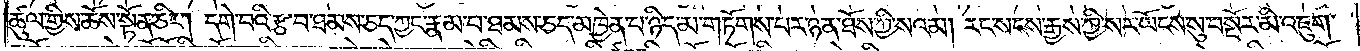ཚུལ་གྱིས་ཆོས་སྟོན་ཅིང༌། དགེ་བའི་རྩ་བ་ཐམས་ཅད་ཀྱང་རྣམ་པ་ཐམས་ཅད་མཁྱེན་པ་ཉིད་མ་གཏོགས་པར་ཉན་ཐོས་ཀྱི་སའམ། རང་སངས་རྒྱས་ཀྱི་སར་ཡོངས་སུ་བསྔོར་མི་འཇུག་
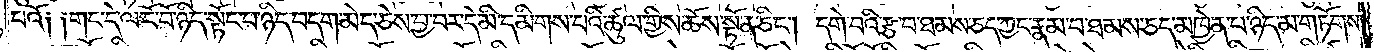པའོ༑ ༑གང་དེ་ལ་ངོ་བོ་ཉིད་སྟོང་པ་ཉིད་བདག་མེད་ཅེས་བྱ་བར་དེ་མི་དམིགས་པའི་ཚུལ་གྱིས་ཆོས་སྟོན་ཅིང༌། དགེ་བའི་རྩ་བ་ཐམས་ཅད་ཀྱང་རྣམ་པ་ཐམས་ཅད་མཁྱེན་པ་ཉིད་མ་གཏོགས་
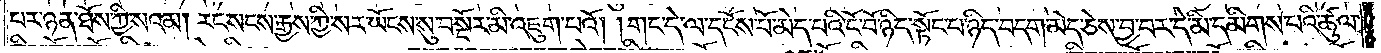པར་ཉན་ཐོས་ཀྱི་སའམ། རང་སངས་རྒྱས་ཀྱི་སར་ཡོངས་སུ་བསྔོར་མི་འཇུག་པའོ། །གང་དེ་ལ་དངོས་པོ་མེད་པའི་ངོ་བོ་ཉིད་སྟོང་བ་ཉིད་བདག་མེད་ཅེས་བྱ་བར་དེ་མི་དམིགས་པའི་ཚུལ་
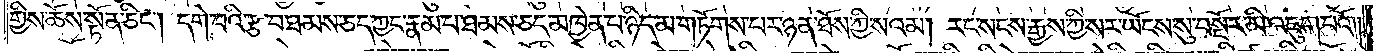གྱིས་ཆོས་སྟོན་ཅིང༌། དགེ་བའི་རྩ་བ་ཐམས་ཅད་ཀྱང་རྣམ་པ་ཐམས་ཅད་མཁྱེན་པ་ཉིད་མ་གཏོགས་པར་ཉན་ཐོས་ཀྱི་སའམ། རང་སངས་རྒྱས་ཀྱི་སར་ཡོངས་སུ་བསྔོར་མི་འཇུག་པའོ༎
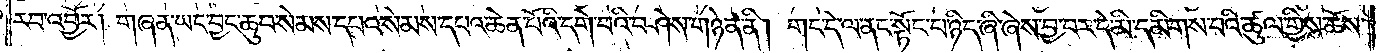རབ་འབྱོར། གཞན་ཡང་བྱང་ཆུབ་སེམས་དཔའ་སེམས་དཔའ་ཆེན་པོའི་དགེ་བའི་བཤེས་གཉེན་ནི། གང་དེ་ལ་ནང་སྟོང་པ་ཉིད་ཞི་ཞེས་བྱ་བར་དེ་མི་དམིགས་པའི་ཚུལ་གྱིས་ཆོས་
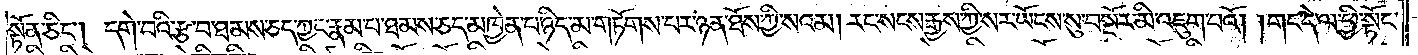སྟོན་ཅིང༌། དགེ་བའི་རྩ་བ་ཐམས་ཅད་ཀྱང་རྣམ་པ་ཐམས་ཅད་མཁྱེན་པ་ཉིད་མ་གཏོགས་པར་ཉན་ཐོས་ཀྱི་སའམ། རང་སངས་རྒྱས་ཀྱི་སར་ཡོངས་སུ་བསྔོར་མི་འཇུག་པའོ། །གང་དེ་ལ་ཕྱི་སྟོང་
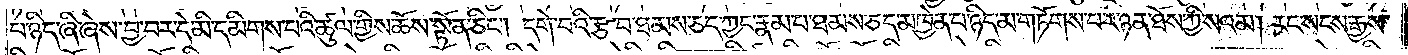པ་ཉིད་ཞི་ཞེས་བྱ་བར་དེ་མི་དམིགས་པའི་ཚུལ་གྱིས་ཆོས་སྟོན་ཅིང༌། དགེ་བའི་རྩ་བ་ཐམས་ཅད་ཀྱང་རྣམ་པ་ཐམས་ཅད་མཁྱེན་པ་ཉིད་མ་གཏོགས་པར་ཉན་ཐོས་ཀྱི་སའམ། རང་སངས་རྒྱས་
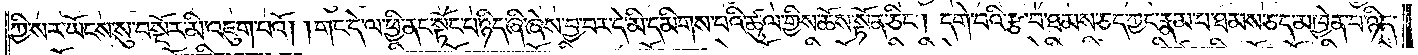ཀྱི་སར་ཡོངས་སུ་བསྔོར་མི་འཇུག་པའོ། །གང་དེ་ལ་ཕྱི་ནང་སྟོང་པ་ཉིད་ཞི་ཞེས་བྱ་བར་དེ་མི་དམིགས་པའི་ཚུལ་གྱིས་ཆོས་སྟོན་ཅིང༌། དགེ་བའི་རྩ་བ་ཐམས་ཅད་ཀྱང་རྣམ་པ་ཐམས་ཅད་མཁྱེན་པ་ཉིད་
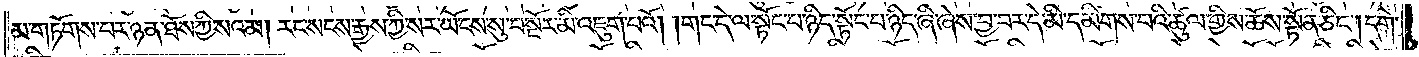མ་གཏོགས་པར་ཉན་ཐོས་ཀྱི་སའམ། རང་སངས་རྒྱས་ཀྱི་སར་ཡོངས་སུ་བསྔོར་མི་འཇུག་པའོ། །གང་དེ་ལ་སྟོང་པ་ཉིད་སྟོང་པ་ཉིད་ཞི་ཞེས་བྱ་བར་དེ་མི་དམིགས་པའི་ཚུལ་གྱིས་ཆོས་སྟོན་ཅིང༌། དགེ་
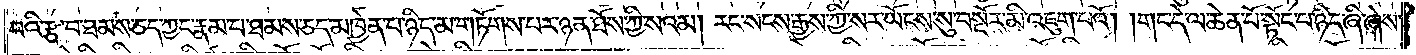བའི་རྩ་བ་ཐམས་ཅད་ཀྱང་རྣམ་པ་ཐམས་ཅད་མཁྱེན་པ་ཉིད་མ་གཏོགས་པར་ཉན་ཐོས་ཀྱི་སའམ། རང་སངས་རྒྱས་ཀྱི་སར་ཡོངས་སུ་བསྔོར་མི་འཇུག་པའོ། །གང་དེ་ལ་ཆེན་པོ་སྟོང་པ་ཉིད་ཞི་ཞེས་
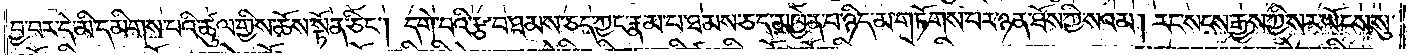བྱ་བར་དེ་མི་དམིགས་པའི་ཚུལ་གྱིས་ཆོས་སྟོན་ཅིང༌། དགེ་བའི་རྩ་བ་ཐམས་ཅད་ཀྱང་རྣམ་པ་ཐམས་ཅད་མཁྱེན་པ་ཉིད་མ་གཏོགས་པར་ཉན་ཐོས་ཀྱི་སའམ། རང་སངས་རྒྱས་ཀྱི་སར་ཡོངས་སུ་
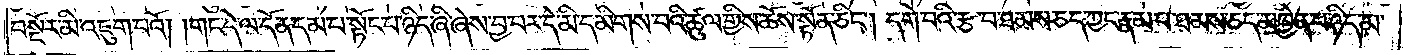བསྔོར་མི་འཇུག་པའོ། །གང་དེ་ལ་དོན་དམ་པ་སྟོང་པ་ཉིད་ཞི་ཞེས་བྱ་བར་དེ་མི་དམིགས་པའི་ཚུལ་གྱིས་ཆོས་སྟོན་ཅིང༌། དགེ་བའི་རྩ་བ་ཐམས་ཅད་ཀྱང་རྣམ་པ་ཐམས་ཅད་མཁྱེན་པ་ཉིད་མ་
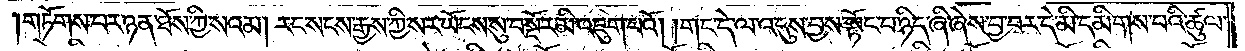གཏོགས་པར་ཉན་ཐོས་ཀྱི་སའམ། རང་སངས་རྒྱས་ཀྱི་སར་ཡོངས་སུ་བསྔོར་མི་འཇུག་པའོ། །གང་དེ་ལ་འདུས་བྱས་སྟོང་པ་ཉིད་ཞི་ཞེས་བྱ་བར་དེ་མི་དམིགས་པའི་ཚུལ་
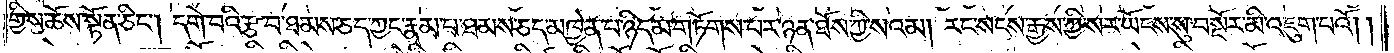གྱིས་ཆོས་སྟོན་ཅིང༌། དགེ་བའི་རྩ་བ་ཐམས་ཅད་ཀྱང་རྣམ་པ་ཐམས་ཅད་མཁྱེན་པ་ཉིད་མ་གཏོགས་པར་ཉན་ཐོས་ཀྱི་སའམ། རང་སངས་རྒྱས་ཀྱི་སར་ཡོངས་སུ་བསྔོར་མི་འཇུག་པའོ། །
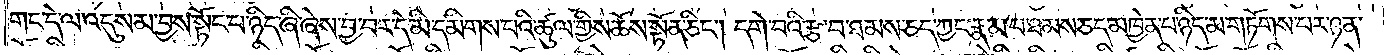གང་དེ་ལ་འདུས་མ་བྱས་སྟོང་པ་ཉིད་ཞི་ཞེས་བྱ་བར་དེ་མི་དམིགས་པའི་ཚུལ་གྱིས་ཆོས་སྟོན་ཅིང༌། དགེ་བའི་རྩ་བ་ཐམས་ཅད་ཀྱང་རྣམ་པ་ཐམས་ཅད་མཁྱེན་པ་ཉིད་མ་གཏོགས་པར་ཉན་
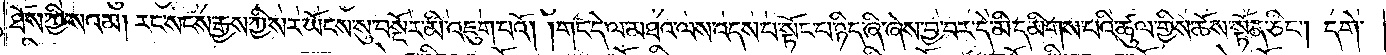ཐོས་ཀྱི་སའམ། རང་སངས་རྒྱས་ཀྱི་སར་ཡོངས་སུ་བསྔོར་མི་འཇུག་པའོ། །གང་དེ་ལ་མཐའ་ལས་འདས་པ་སྟོང་པ་ཉིད་ཞི་ཞེས་བྱ་བར་དེ་མི་དམིགས་པའི་ཚུལ་གྱིས་ཆོས་སྟོན་ཅིང༌། དགེ་
